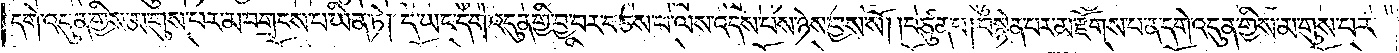དགེ་འདུན་གྱིས་མ་གུས་པར་མ་བགྲངས་པ་ཡིན་ཏེ། དེ་ཡང་དགེ་འདུན་གྱི་བྱ་བར་བཅས་པ་ལས་འདས་པས་ཉེས་བྱས་སོ། །བཙུན་པ། བསྙེན་པར་མ་རྫོགས་པ་ན་དགེ་འདུན་གྱིས་མ་གུས་པར་
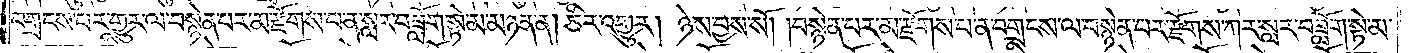བགྲངས་པར་གྱུར་ལ་བསྙེན་པར་མ་རྫོགས་པ་ན་སླར་བཟློག་སྟེ་མ་མཉན་ན། ཅིར་འགྱུར། ཉེས་བྱས་སོ། །བསྙེན་པར་མ་རྫོགས་པ་ན་བགྲངས་ལ་བསྙེན་པར་རྫོགས་ཀར་སླར་བཟློག་སྟེ་མ་
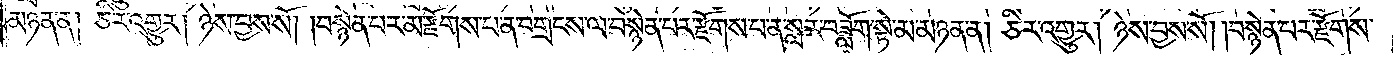མཉན་ན། ཅིར་འགྱུར། ཉེས་བྱས་སོ། །བསྙེན་པར་མ་རྫོགས་པ་ན་བགྲངས་ལ་བསྙེན་པར་རྫོགས་པ་ན་སླར་བཟློག་སྟེ་མ་མཉན་ན། ཅིར་འགྱུར། ཉེས་བྱས་སོ། །བསྙེན་པར་རྫོགས་
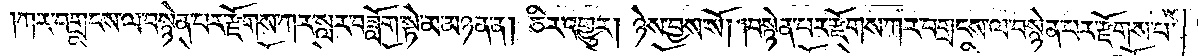།ཀར་བགྲངས་ལ་བསྙེན་པར་རྫོགས་ཀར་སླར་བཟློག་སྟེ་མ་མཉན་ན། ཅིར་འགྱུར། ཉེས་བྱས་སོ། །བསྙེན་པར་རྫོགས་ཀར་བགྲངས་ལ་བསྙེན་པར་རྫོགས་པ་
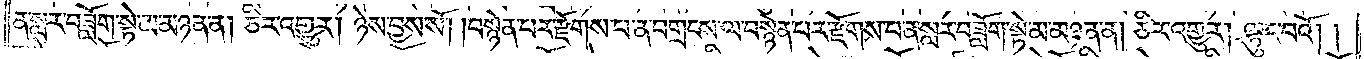ན་སླར་བཟློག་སྟེ་མ་མཉན་ན། ཅིར་འགྱུར། ཉེས་བྱས་སོ། །བསྙེན་པར་རྫོགས་པ་ན་བགྲངས་ལ་བསྙེན་པར་རྫོགས་པ་ན་སླར་བཟློག་སྟེ་མ་མཉན་ན། ཅིར་འགྱུར། ལྟུང་བའོ། །
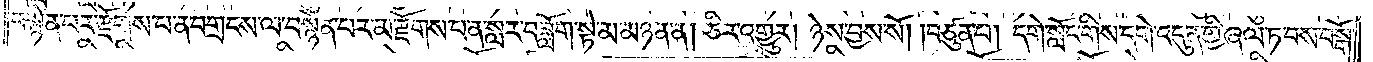བསྙེན་པར་རྫོགས་པ་ན་བགྲངས་ལ་བསྙེན་པར་མ་རྫོགས་པ་ན་སླར་བཟློག་སྟེ་མ་མཉན་ན། ཅིར་འགྱུར། ཉེས་བྱས་སོ། །བཙུན་པ། དགེ་སློང་གིས་དགེ་འདུན་གྱི་ཞལ་ཏ་བས་བསྒོ་
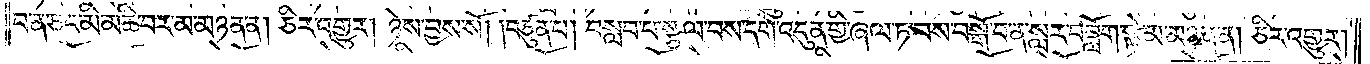བ་ན་ཅང་མི་མཆི་བར་མ་མཉན་ན། ཅིར་འགྱུར། ཉེས་བྱས་སོ། །བཙུན་པ། བསླབ་པ་སྩལ་བས་དགེ་འདུན་གྱི་ཞལ་ཏ་བས་བསྒོ་བ་ན་སླར་བཟློག་སྟེ་མ་མཉན་ན། ཅིར་འགྱུར།
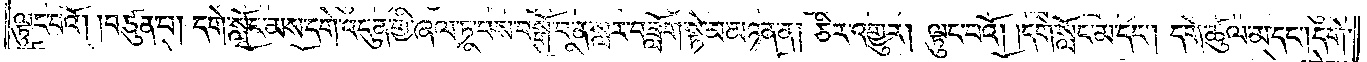ལྟུང་བའོ། །བཙུན་པ། དགེ་སློང་མས་དགེ་འདུན་གྱི་ཞལ་ཏ་བས་བསྒོ་བ་ན་སླར་བཟློག་སྟེ་མ་མཉན་ན། ཅིར་འགྱུར། ལྟུང་བའོ། །དགེ་སློང་མ་དང༌། དགེ་ཚུལ་མ་དང༌། དགེ་
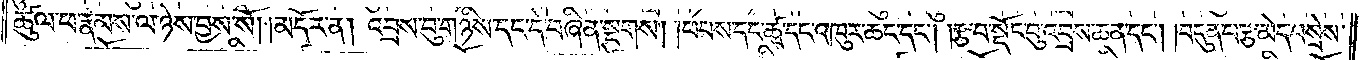ཚུལ་ཕ་རྣམས་ལ་ཉེས་བྱས་སོ།    །མདོར་ན། འབྲས་བུ་གཉིས་དང་དེ་བཞིན་སྔགས། །ཕབས་དང་ཚྭ་དང་འཁུར་ཆང་དང༌། །རྩ་བ་སྡོང་བུ་འབྲས་ཅན་དང༌། །བདུན་པ་རྩ་མེད་བསྲེས་
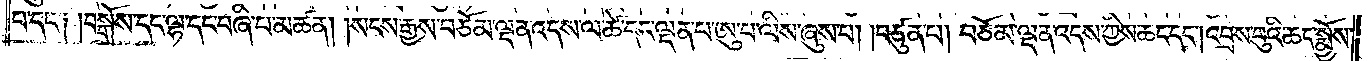པ་དང༌། །བསྒོས་དང་ལྷ་དང་བཞི་པ་མཚན། །སངས་རྒྱས་བཅོམ་ལྡན་འདས་ལ་ཚེ་དང་ལྡན་པ་ཨུ་པ་ལིས་ཞུས་པ། །བཙུན་པ། བཅོམ་ལྡན་འདས་ཀྱིས་ཆང་དང༌། འབྲས་བུའི་ཆང་སྨྱོས་
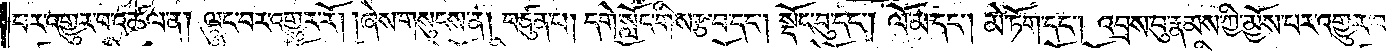པར་འགྱུར་བ་འཚལ་ན། ལྟུང་བར་འགྱུར་རོ། །ཞེས་གསུངས་ན། བཙུན་པ། དགེ་སློང་གིས་རྩ་བ་དང༌། སྡོང་བུ་དང༌། ལོ་མ་དང༌། མེ་ཏོག་དང༌། འབྲས་བུ་རྣམས་ཀྱི་མྱོས་པར་འགྱུར་བ་
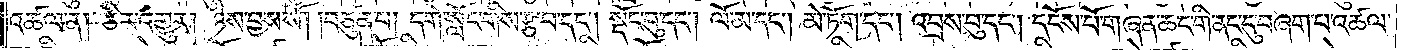འཚལ་ན། ཅིར་འགྱུར། ཉེས་བྱས་སོ། །བཙུན་པ། དགེ་སློང་གིས་རྩ་བ་དང༌། སྡོང་བུ་དང༌། ལོ་མ་དང༌། མེ་ཏོག་དང༌། འབྲས་བུ་དང༌། དངོས་པོ་གཞན་ཆང་གི་ནང་དུ་བཞག་པ་འཚལ་
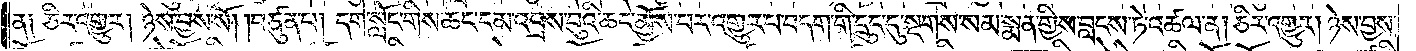ན༑ ཅིར་འགྱུར། ཉེས་བྱས་སོ། །བཙུན་པ། དགེ་སློང་གིས་ཆང་ངམ་འབྲས་བུའི་ཆང་མྱོས་པར་འགྱུར་བ་བདག་གི་དྲུང་དུ་སྔགས་སམ་སྨན་གྱིས་བླངས་ཏེ་འཚལ་ན། ཅིར་འགྱུར། ཉེས་བྱས་
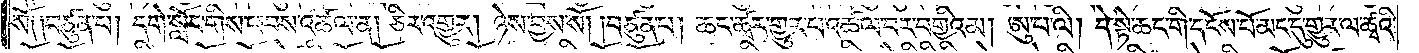སོ༑ ༑བཙུན་པ། དགེ་སློང་གིས་ཕབས་འཚལ་ན། ཅིར་འགྱུར། ཉེས་བྱས་སོ། །བཙུན་པ། ཆང་ཚྭར་གྱུར་པ་འཚལ་བར་བགྱིའམ། ཨུ་པ་ལི། དེ་སྟེ་ཆང་གི་དངོས་པོ་མང་དུ་གྱུར་ལ་ཚྭའི་
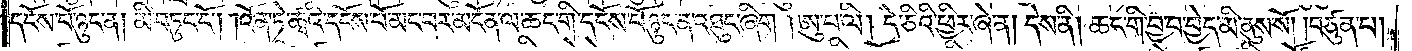དངོས་པོ་ཉུང་ན། མི་བཏུང་ངོ༌། །འོན་ཏེ་ཚྭའི་དངོས་པོ་མང་བར་མངོན་ལ་ཆང་གི་དངོས་པོ་ཉུང་ན་འཐུང་ཞིག །ཨུ་པ་ལི། དེ་ཅིའི་ཕྱིར་ཞེ་ན། དེས་ནི། ཆང་གི་བྱ་བ་བྱེད་མི་ནུས་སོ། །བཙུན་པ།
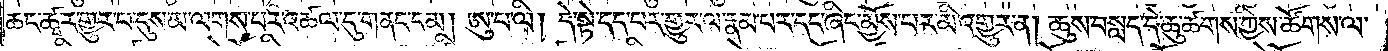ཆང་ཚྭར་གྱུར་པ་དུས་མ་ལགས་པར་འཚལ་དུ་གནང་ངམ། ཨུ་པ་ལི། དེ་སྟེ་དད་པར་གྱུར་ལ་རྣམ་པར་དང་ཞིང་མྱོས་པར་མི་འགྱུར་ན། ཆུས་བསླད་དེ་ཆུ་ཚགས་ཀྱིས་ཚོགས་ལ་
